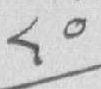༨༠
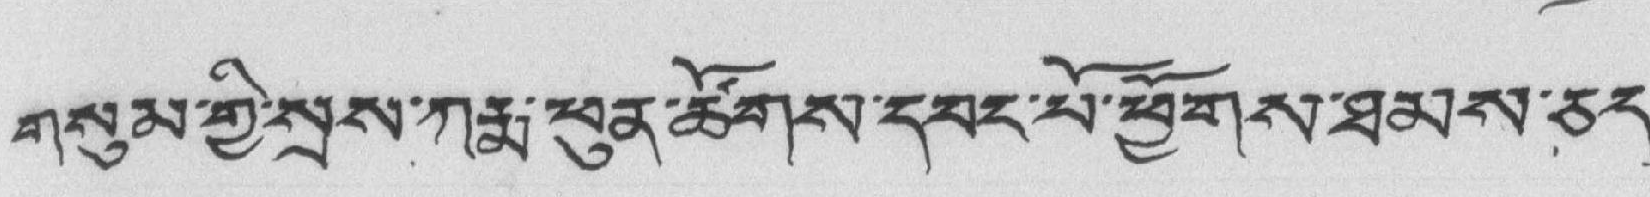གསུམ་གྱི་སྲས་ཀརྨ་ཕུན་ཚོགས་དབང་པོ་ཕྱོགས་ཐམས་ཅད་
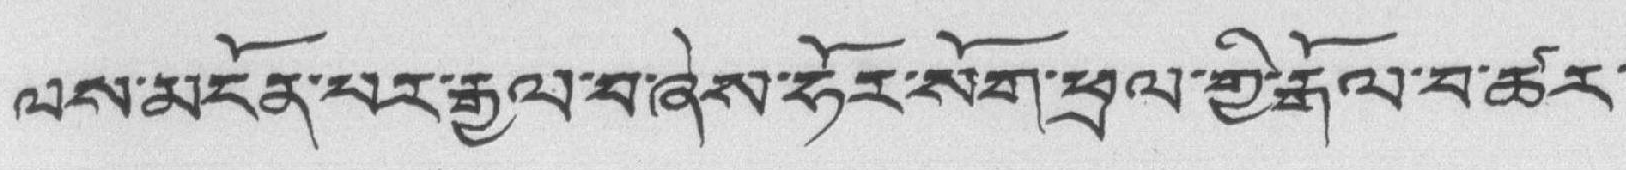ལས་མངོན་པར་རྒྱལ་བ་ཞེས་ཧོར་སོག་ཕྲལ་གྱི་རྒོལ་བ་ཚར་
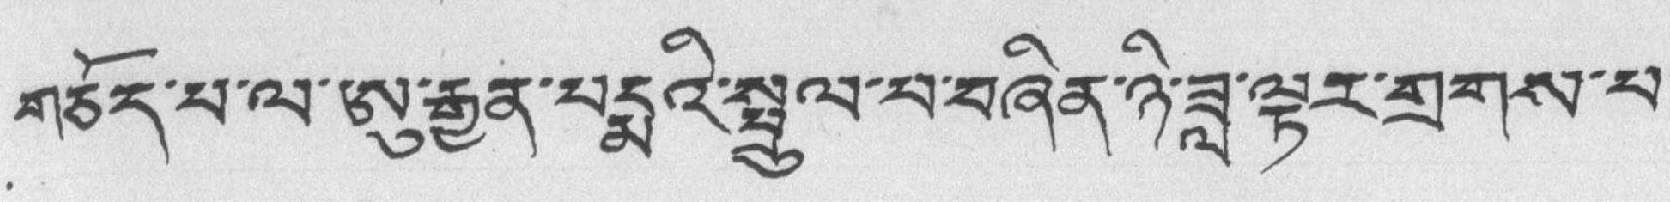གཅོད་པ་ལ་ཨུ་རྒྱན་བདྨའི་སྤྲུལ་བ་བཞིན་ཉི་ཟླ་ལྟར་གྲགས་པ་
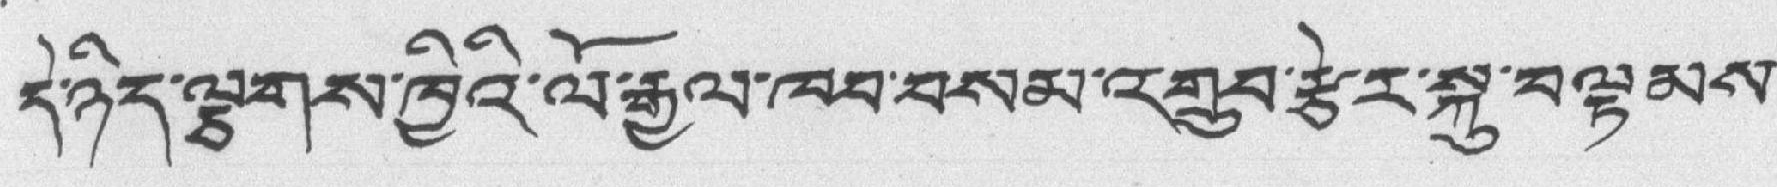དེ་ཉིད་ལྕགས་ཁྱིའི་ལོ་རྒྱལ་ཁབ་བསམ་འགྲུབ་རྩེར་སྐུ་བལྟམས་
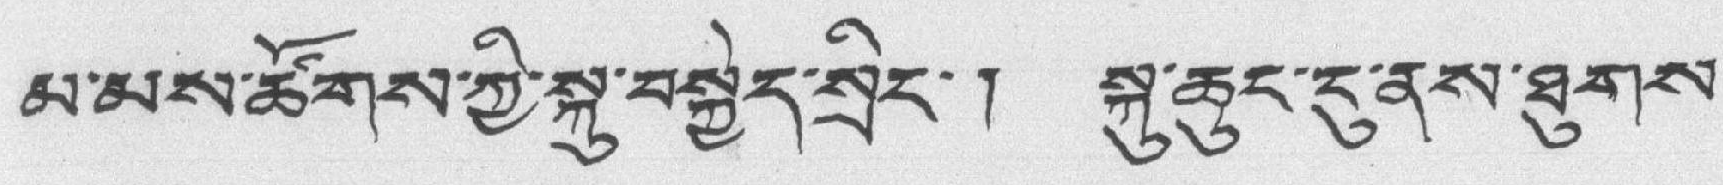མ་མས་ཚོགས་ཀྱི་སྐུ་བསྐྱེད་སྲིང་། སྐུ་ཆུང་དུ་ནས་ཐུགས་
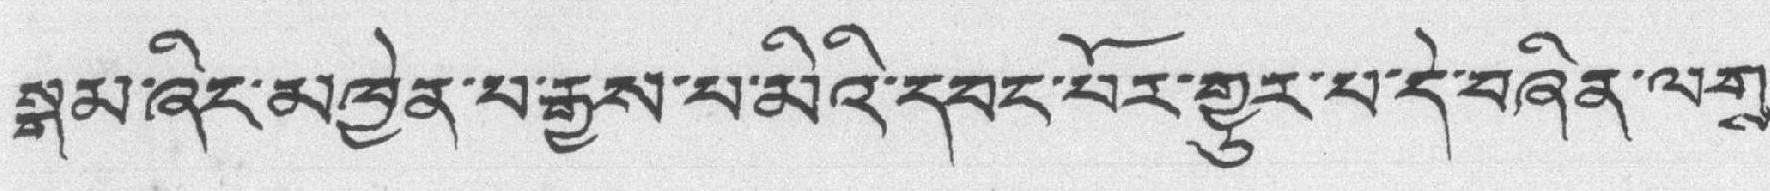སྒམ་ཞིང་མཁྱེན་པ་རྒྱས་པ་མིའི་དབང་པོར་གྱུར་པ་དེ་བཞིན་ལགས་
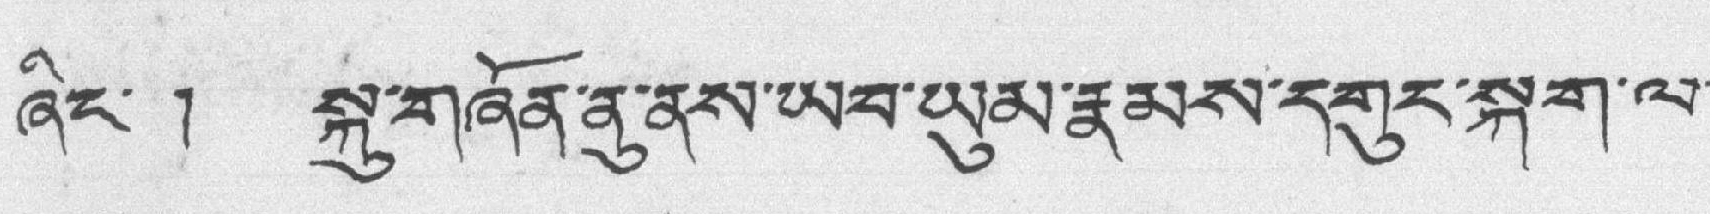ཞིང་། སྐུ་གཞོན་ནུ་ནས་ཡབ་ཡུམ་རྣམས་དགུང་སྐག་ལ་
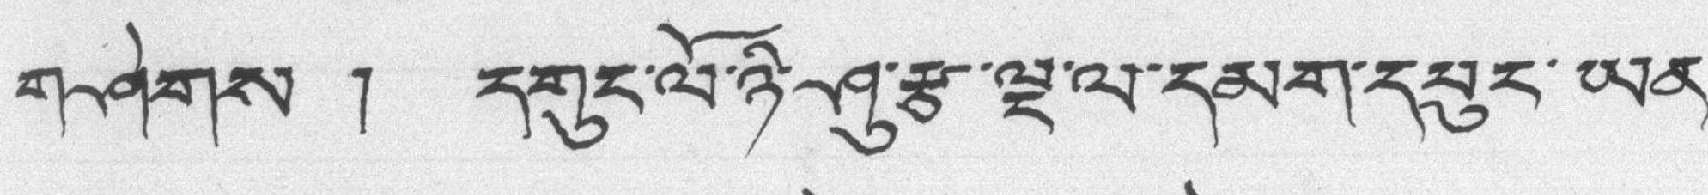གཤེགས། དགུང་ལོ་ཉི་ཤུ་རྩ་ལྔ་ལ་དམག་དཔུང་ཡན་
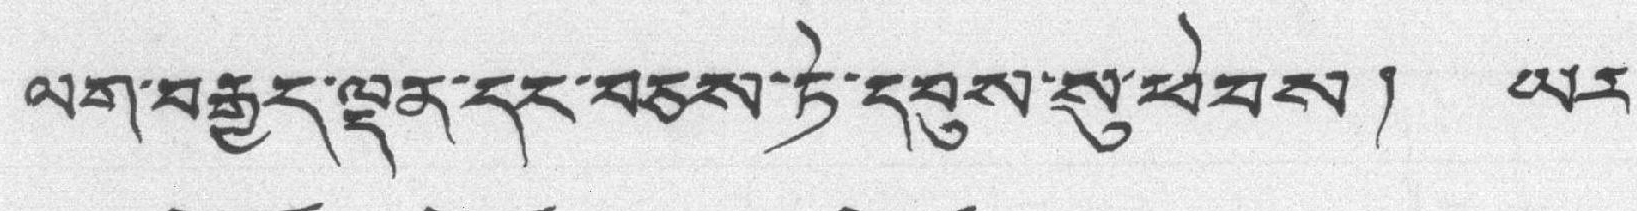ལག་བརྒྱད་ལྡན་དང་བཅས་ཏེ་དབུས་སུ་ཕེབས། ཡར་
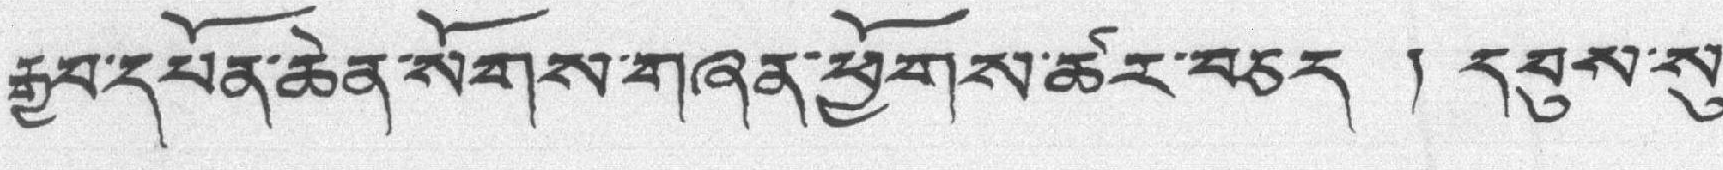རྒྱབ་དཔོན་ཆེན་སོགས་གཞན་ཕྱོགས་ཚར་བཅད ། དབུས་སུ་
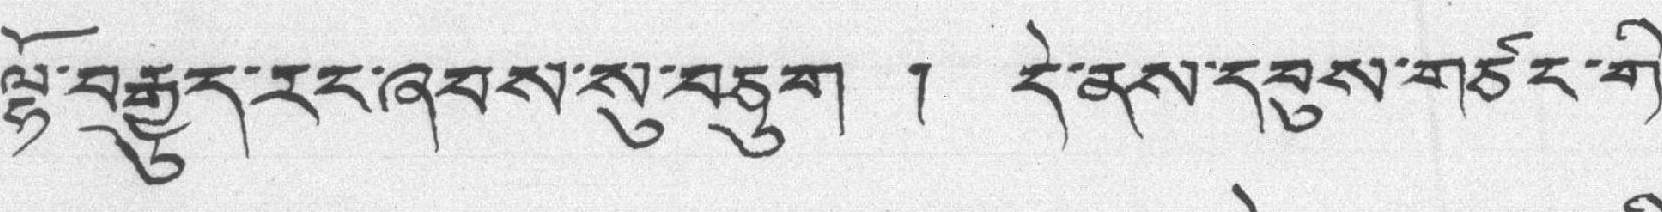ལྷོ་བརྒྱུད་རང་ཞབས་སུ་བཅུག ། དེ་ནས་དབུས་གཙང་གི་
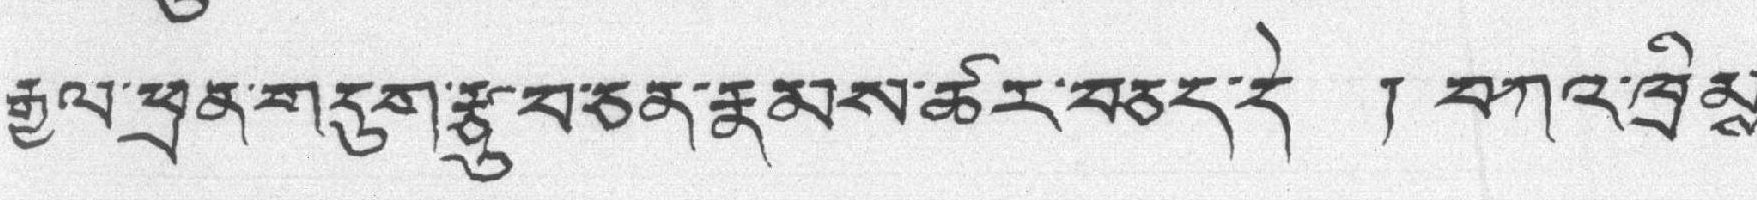རྒྱལ་ཕྲན་གདུག་རྩུ་བ་ཅན་རྣམས་ཚར་བཅད་དེ ། བཀའ་ཁྲིམས་
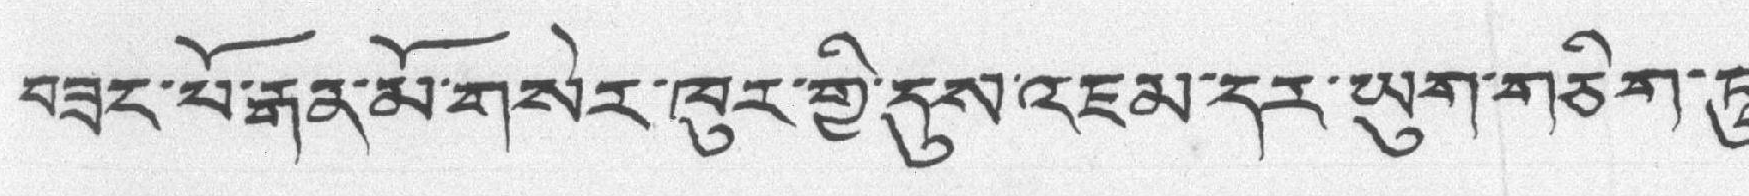བཟང་པོ་རྒན་མོ་གསེར་ཁུར་གྱི་དུས་འཇམ་དར་ཡུག་གཅིག་ཏུ་
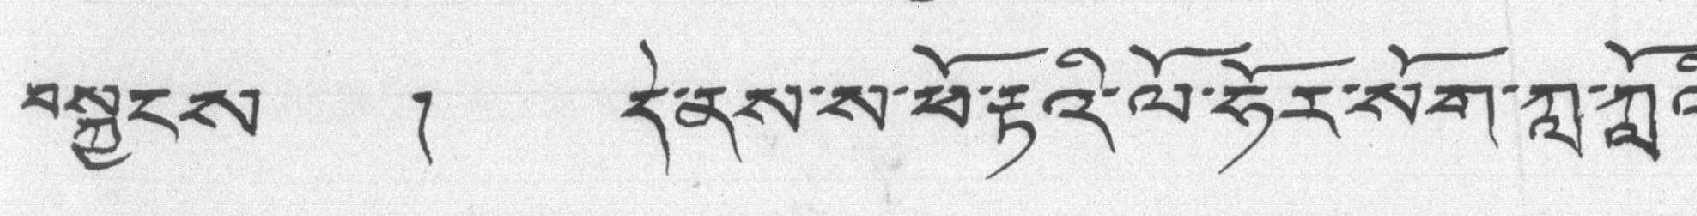བསྐྱངས ། དེ་ནས་ས་ཕོ་རྟའི་ལོ་ཧོར་སོག་ཀླ་ཀློའི་
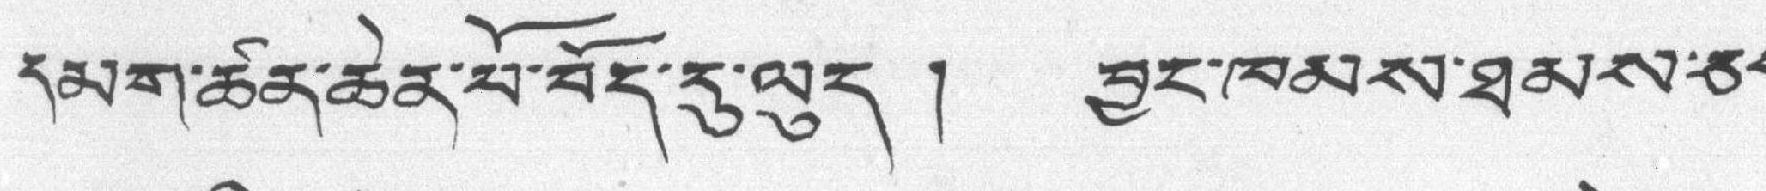དམག་ཚན་ཆེན་པོ་བོད་དུ་ལུད། བྱང་ཁམས་ཐམས་ཅད་
